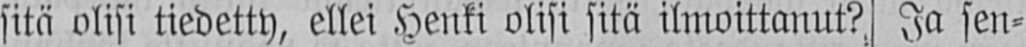sitä olisi tiedetty, ellei Henki olisi sitä ilmoittanut? Ja sen-
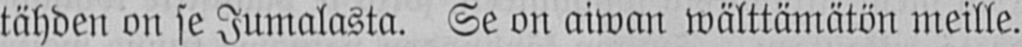tähden on se Jumalasta. Se on aiwan wälttämätön meille.
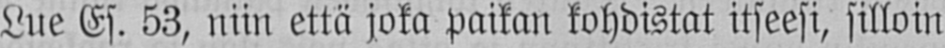Lue Es. 53, niin että joka paikan kohdistat itseesi, silloin
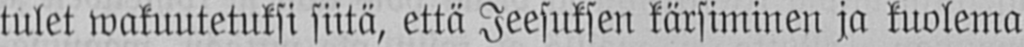tulet wakuutetuksi siitä, että Jeesuksen kärsiminen ja kuolema
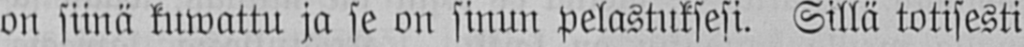on siinä kuwattu ja se on sinun pelastuksesi. Sillä totisesti
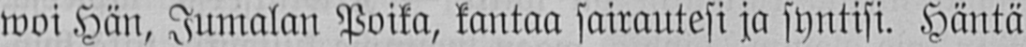woi Hän, Jumalan Poika, kantaa sairautesi ja syntisi. Häntä
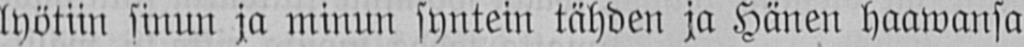lyötiin sinun ja minun syntein tähden ja Hänen haawansa
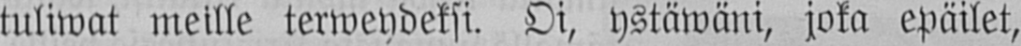tuliwat meille terweydeksi. Oi, ystäwäni, joka epäilet,
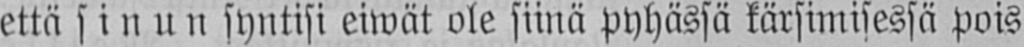että sinun syntisi eiwät ole siinä pyhässä kärsimisessä pois
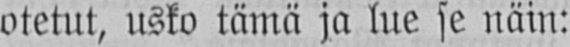otetut, usko tämä ja lue se näin:
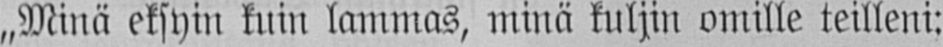„Minä eksyin kuin lammas, minä kuljin omille teilleni:
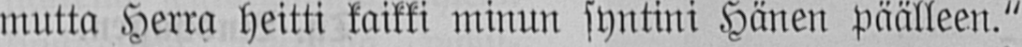mutta Herra heitti kaikki minun syntini Hänen päälleen."
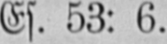Es. 53: 6.
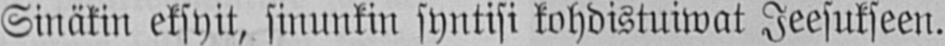Sinäkin eksyit, sinunkin syntisi kohdistuiwat Jeesukseen.
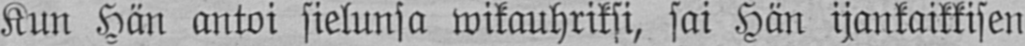Kun Hän antoi sielunsa wikauhriksi, sai Hän ijankaikkisen
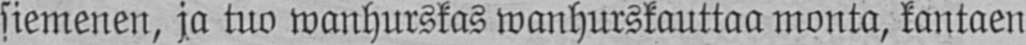siemenen, ja tuo wanhurskas wanhurskauttaa monta, kantaen
